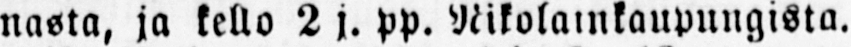nasta, ja kello 2 j. pp. Nikolainkaupungista.
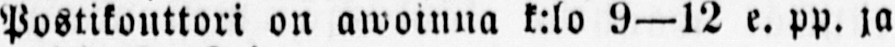Postikonttori on awoinna k:lo 9—12 e. pp. ja
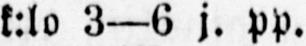k:lo 3—6 j. pp.
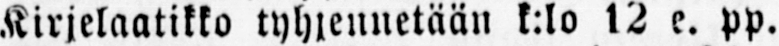Kirjelaatikko tyhjennetään k:lo 12 e. pp.
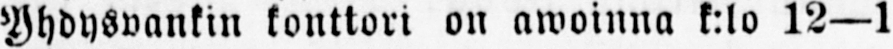Yhdyspankin konttori on awoinna k:lo 12 —1
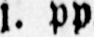j. PP.
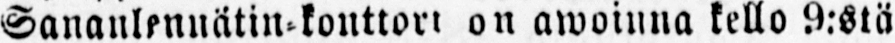Sananlenuätin-konttoit on awoinna kello 9:stä
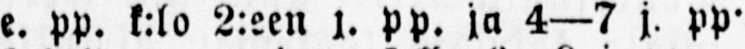e. pp. k:lo 2:een l. pp. ja 4—7 j. pp•
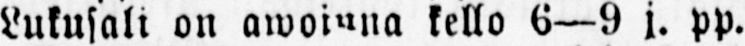Lukusali on awoinna kello 6—9 j. pp.
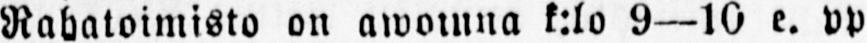Rahatoimisto on awoinna k:lo 9 —10 e. pp
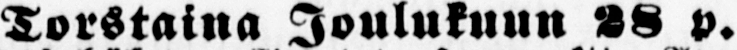Torstaina Joulukuun 28 p.
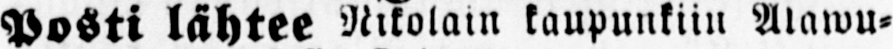Posti lähtee Nikolain kaupunkiin Alawu-
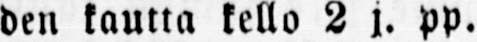den kautta kello 2 j. PP.
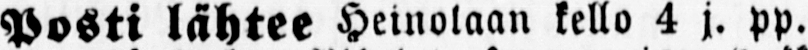Posti lähtee Heinolaan kello 4 j. pp.
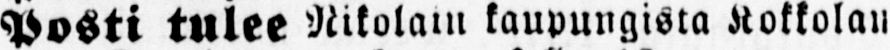Posti tulee Nikolain kaupungista Kokkolan
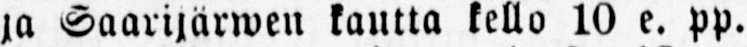ja Saarijärwen kautta kello 10 e. pp.
